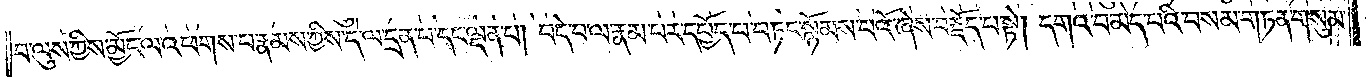བ་ལུས་ཀྱིས་མྱོང་ལ་འཕགས་པ་རྣམས་ཀྱིས་དེ་ལ་དྲན་པ་དང་ལྡན་པ། བདེ་བ་ལ་རྣམ་པར་དཔྱོད་པ་བཏང་སྙོམས་པའོ་ཞེས་བརྗོད་པ་སྟེ། དགའ་བ་མེད་པའི་བསམ་གཏན་གསུམ་
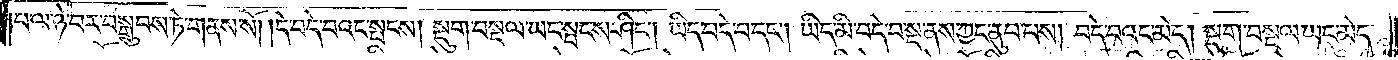པ་ལ་ཉེ་བར་བསྒྲུབས་ཏེ་གནས་སོ། །དེ་བདེ་བའང་སྤངས། སྡུག་བསྔལ་ཡང་སྤངས་ཤིང༌། ཡིད་བདེ་བ་དང༌། ཡིད་མི་བདེ་བ་སྔ་ནས་ཀྱང་ནུབ་པས། བདེ་བའང་མེད། སྡུག་བསྔལ་ཡང་མེད་
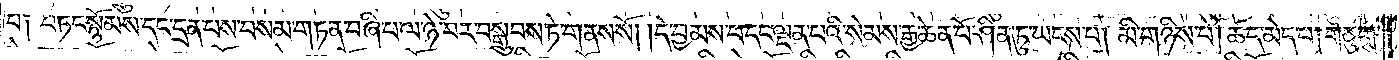པ། བཏང་སྙོམས་དང་དྲན་པས་བསམ་གཏན་བཞི་པ་ལ་ཉེ་བར་བསྒྲུབས་ཏེ་གནས་སོ། །དེ་བྱམས་པ་དང་ལྡན་པའི་སེམས་རྒྱ་ཆེན་པོ་ཤིན་ཏུ་ཡངས་པ། མི་གཉིས་པ། ཚད་མེད་པ། གཅུགས་
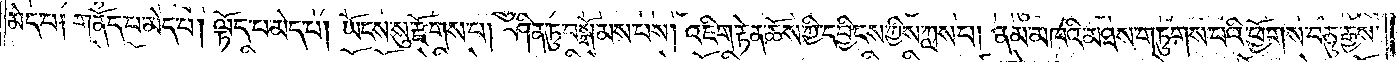མེད་པ། གནོད་པ་མེད་པ། ལྟོད་པ་མེད་པ། ཡོངས་སུ་རྫོགས་པ། ཤིན་ཏུ་བསྒོམས་པས། འཇིག་རྟེན་ཆོས་ཀྱི་དབྱིངས་ཀྱིས་ཀླས་པ། ནམ་མཁའི་མཐས་གཏུགས་པའི་ཕྱོགས་བཅུ་རྒྱས་
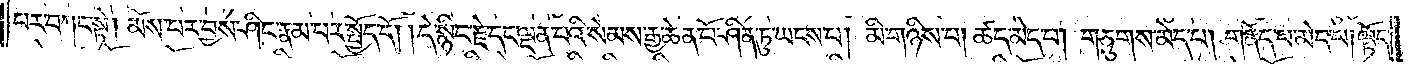པར་བཀང་སྟེ། མོས་པར་བྱས་ཤིང་རྣམ་པར་སྤྱོད་དོ། །དེ་སྙིང་རྗེ་དང་ལྡན་པའི་སེམས་རྒྱ་ཆེན་པོ་ཤིན་ཏུ་ཡངས་པ། མི་གཉིས་པ། ཚད་མེད་པ། གཅུགས་མེད་པ། གནོད་པ་མེད་པ། ལྟོད་
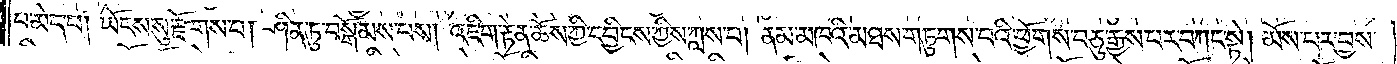པ་མེད་པ། ཡོངས་སུ་རྫོགས་པ། ཤིན་ཏུ་བསྒོམས་པས། འཇིག་རྟེན་ཆོས་ཀྱི་དབྱིངས་ཀྱིས་ཀླས་པ། ནམ་མཁའི་མཐས་གཏུགས་པའི་ཕྱོགས་བཅུ་རྒྱས་པར་བཀང་སྟེ། མོས་པར་བྱས་
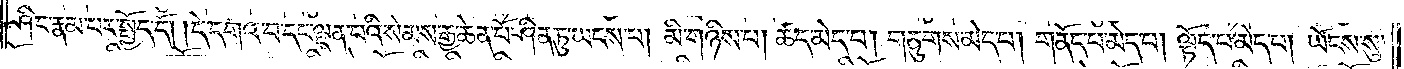ཤིང་རྣམ་པར་སྤྱོད་དོ། །དེ་དགའ་བ་དང་ལྡན་པའི་སེམས་རྒྱ་ཆེན་པོ་ཤིན་ཏུ་ཡངས་པ། མི་གཉིས་པ། ཚད་མེད་པ། གཅུགས་མེད་པ། གནོད་པ་མེད་པ། ལྟོད་པ་མེད་པ་ཡོངས་སུ་
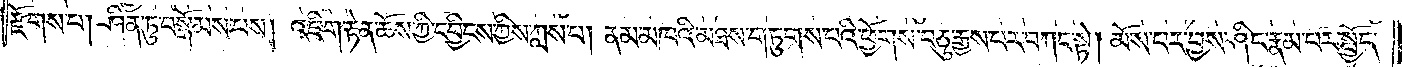རྫོགས་པ། ཤིན་ཏུ་བསྒོམས་པས། འཇིག་རྟེན་ཆོས་ཀྱི་དབྱིངས་ཀྱིས་ཀླས་པ། ནམ་མཁའི་མཐས་གཏུགས་པའི་ཕྱོགས་བཅུ་རྒྱས་པར་བཀང་སྟེ། མོས་པར་བྱས་ཤིང་རྣམ་པར་སྤྱོད་
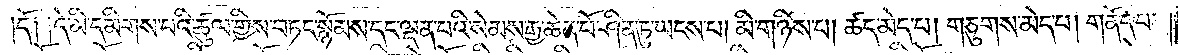དོ༑ ༑དེ་མི་དམིགས་པའི་ཚུལ་གྱིས་བཏང་སྙོམས་དང་ལྡན་པའི་སེམས་རྒྱ་ཆེན་པོ་ཤིན་ཏུ་ཡངས་པ། མི་གཉིས་པ། ཚད་མེད་པ། གཅུགས་མེད་པ། གནོད་པ་
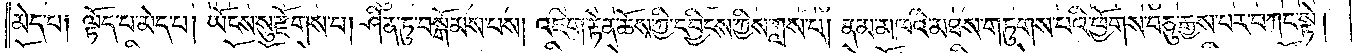མེད་པ། ལྟོད་པ་མེད་པ། ཡོངས་སུ་རྫོགས་པ། ཤིན་ཏུ་བསྒོམས་པས། འཇིག་རྟེན་ཆོས་ཀྱི་དབྱིངས་ཀྱིས་ཀླས་པ། ནམ་མཁའི་མཐས་གཏུགས་པའི་ཕྱོགས་བཅུ་རྒྱས་པར་བཀང་སྟེ།
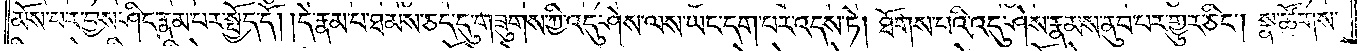མོས་པར་བྱས་ཤིང་རྣམ་པར་སྤྱོད་དོ། །དེ་རྣམ་པ་ཐམས་ཅད་དུ་གཟུགས་ཀྱི་འདུ་ཤེས་ལས་ཡང་དག་པར་འདས་ཏེ། ཐོགས་པའི་འདུ་ཤེས་རྣམས་ནུབ་པར་གྱུར་ཅིང༌། སྣ་ཚོགས་
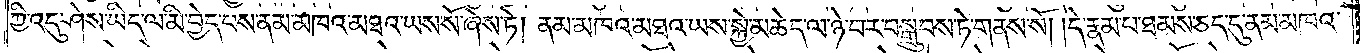ཀྱི་འདུ་ཤེས་ཡིད་ལ་མི་བྱེད་པས་ནམ་མཁའ་མཐའ་ཡས་སོ་ཞེས་ཏེ། ནམ་མཁའ་མཐའ་ཡས་སྐྱེ་མཆེད་ལ་ཉེ་བར་བསྒྲུབས་ཏེ་གནས་སོ། །དེ་རྣམ་པ་ཐམས་ཅད་དུ་ནམ་མཁའ་
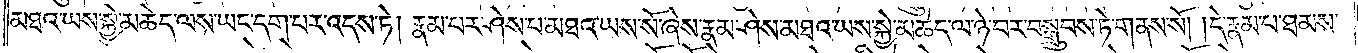མཐའ་ཡས་སྐྱེ་མཆེད་ལས་ཡང་དག་པར་འདས་ཏེ། རྣམ་པར་ཤེས་པ་མཐའ་ཡས་སོ་ཞེས་རྣམ་ཤེས་མཐའ་ཡས་སྐྱེ་མཆེད་ལ་ཉེ་བར་བསྒྲུབས་ཏེ་གནས་སོ། །དེ་རྣམ་པ་ཐམས་
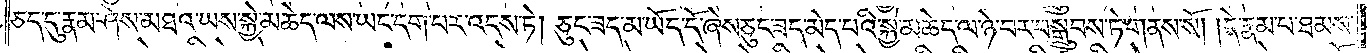ཅད་དུ་རྣམ་ཤེས་མཐའ་ཡས་སྐྱེ་མཆེད་ལས་ཡང་དག་པར་འདས་ཏེ། ཅུང་ཟད་མ་ཡོད་དོ་ཞེས་ཅུང་ཟད་མེད་པའི་སྐྱེ་མཆེད་ལ་ཉེ་བར་བསྒྲུབས་ཏེ་གནས་སོ། །དེ་རྣམ་པ་ཐམས་
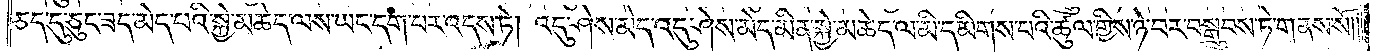ཅད་དུ་ཅུང་ཟད་མེད་པའི་སྐྱེ་མཆེད་ལས་ཡང་དག་པར་འདས་ཏེ། འདུ་ཤེས་མེད་འདུ་ཤེས་མེད་མིན་སྐྱེ་མཆེད་ལ་མི་དམིགས་པའི་ཚུལ་གྱིས་ཉེ་བར་བསྒྲུབས་ཏེ་གནས་སོ༎
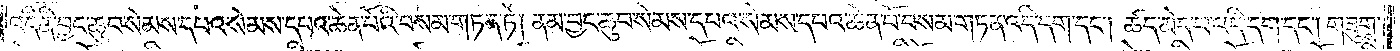འདི་ནི་བྱང་ཆུབ་སེམས་དཔའ་སེམས་དཔའ་ཆེན་པོའི་བསམ་གཏན་ཏེ། ནམ་བྱང་ཆུབ་སེམས་དཔའ་སེམས་དཔའ་ཆེན་པོ་བསམ་གཏན་འདི་དག་དང༌། ཚད་མེད་པ་འདི་དག་དང༌། གཟུགས་
